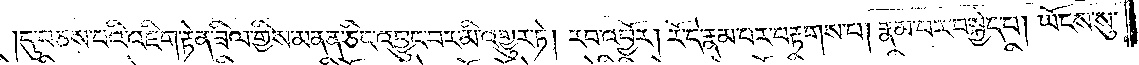དུ་བཅས་པའི་འཇིག་རྟེན་ཟིལ་གྱིས་མནན་ཅིར་འབྱུང་བར་མི་འགྱུར་ཏེ། རབ་འབྱོར། རོ་དེ་རྣམ་པར་བརྟགས་པ། རྣམ་པར་བསྐྱེད་པ། ཡོངས་སུ་
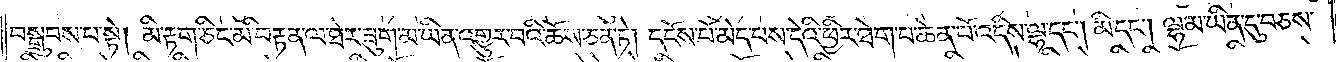བསྒྲུབས་པ་སྟེ། མི་རྟག་ཅིང་མི་བརྟན་ལ་ཐེར་ཟུག་མ་ཡིན་འགྱུར་བའི་ཆོས་ཅན་ཏེ། དངོས་པོ་མེད་པས་དེའི་ཕྱིར་ཐེག་པ་ཆེན་པོ་འདིས་ལྷ་དང༌། མི་དང༌། ལྷ་མ་ཡིན་དུ་བཅས་
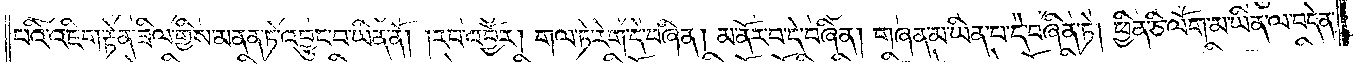པའི་འཇིག་རྟེན་ཟིལ་གྱིས་མནན་ཏེ་འབྱུང་བ་ཡིན་ནོ། །རབ་འབྱོར། གལ་ཏེ་རེག་དེ་བཞིན། མ་ནོར་བ་དེ་བཞིན། གཞན་མ་ཡིན་པ་དེ་བཞིན་ཏེ། ཕྱིན་ཅི་ལོག་མ་ཡིན་ལ་བདེན་
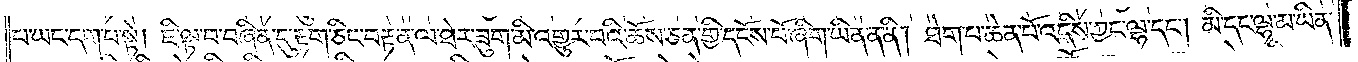པ་ཡང་དག་པ་སྟེ། ཇི་ལྟ་བ་བཞིན་དུ་རྟག་ཅིང་བརྟེན་ལ་ཐེར་ཟུག་མི་འགྱུར་བའི་ཆོས་ཅན་གྱི་དངོས་པོ་ཞིག་ཡིན་ན་ནི། ཐེག་པ་ཆེན་པོ་འདིས་ཀྱང་ལྷ་དང༌། མི་དང་ལྷ་མ་ཡིན་
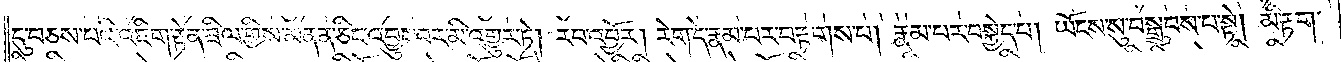དུ་བཅས་པའི་འཇིགས་རྟེན་ཟིལ་གྱིས་མནན་ཅིང་འབྱུང་བར་མི་འགྱུར་ཏེ། རབ་འབྱོར། རེག་དེ་རྣམ་པར་བརྟགས་པ། རྣམ་པར་བསྐྱེད་པ། ཡོངས་སུ་བསྒྲུབས་པ་སྟེ། མི་རྟག་
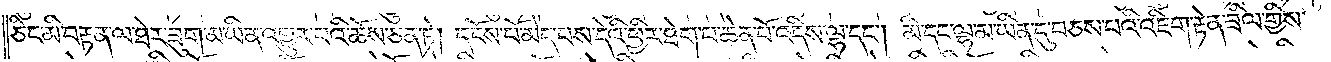ཅིང་མི་བརྟན་ལ་ཐེར་ཟུག་མ་ཡིན་འགྱུར་བའི་ཆོས་ཅན་ཏེ། དངོས་པོ་མེད་པས་དེའི་ཕྱིར་ཐེག་པ་ཆེན་པོ་འདིས་ལྷ་དང༌། མི་དང་ལྷ་མ་ཡིན་དུ་བཅས་པའི་འཇིག་རྟེན་ཟིལ་གྱིས་
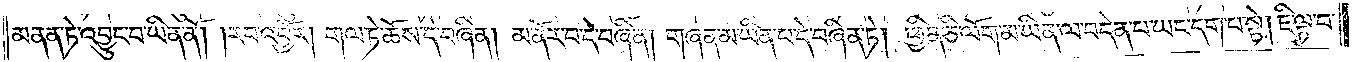མནན་ཏེ་འབྱུང་བ་ཡིན་ནོ། །རབ་འབྱོར། གལ་ཏེ་ཆོས་དེ་བཞིན། མ་ནོར་བ་དེ་བཞིན། གཞན་མ་ཡིན་པ་དེ་བཞིན་ཏེ། ཕྱིན་ཅི་ལོག་མ་ཡིན་ལ་བདེན་པ་ཡང་དག་པ་སྟེ། ཇི་ལྟ་བ་
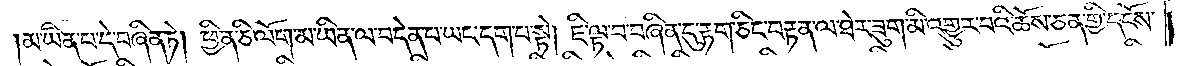མ་ཡིན་པ་དེ་བཞིན་ཏེ། ཕྱིན་ཅི་ལོག་མ་ཡིན་ལ་བདེན་པ་ཡང་དག་པ་སྟེ། ཇི་ལྟ་བ་བཞིན་དུ་རྟག་ཅིང་བརྟན་ལ་ཐེར་ཟུག་མི་འགྱུར་བའི་ཆོས་ཅན་གྱི་དངོས་
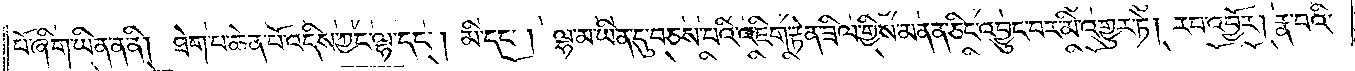པོ་ཞིག་ཡིན་ན་ནི། ཐེག་པ་ཆེན་པོ་འདིས་ཀྱང་ལྷ་དང༌། མི་དང༌། ལྷ་མ་ཡིན་དུ་བཅས་པའི་འཇིག་རྟེན་ཟིལ་གྱིས་མནན་ཅིང་འབྱུང་བར་མི་འགྱུར་ཏེ། རབ་འབྱོར། རྣ་བའི་
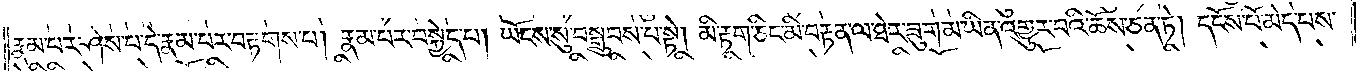རྣམ་པར་ཤེས་པ་དེ་རྣམ་པར་བརྟགས་པ། རྣམ་པར་བསྐྱེད་པ། ཡོངས་སུ་བསྒྲུབས་པ་སྟེ། མི་རྟག་ཅིང་མི་བརྟན་ལ་ཐེར་ཟུག་མ་ཡིན་འགྱུར་བའི་ཆོས་ཅན་ཏེ། དངོས་པོ་མེད་པས་
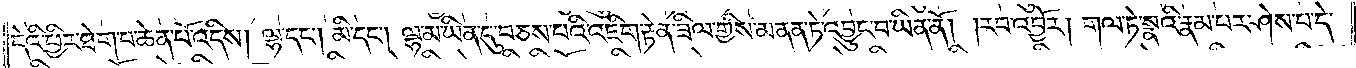དེའི་ཕྱིར་ཐེག་པ་ཆེན་པོ་འདིས། ལྷ་དང༌། མི་དང༌། ལྷ་མ་ཡིན་དུ་བཅས་པའི་འཇིག་རྟེན་ཟིལ་གྱིས་མནན་ཏེ་འབྱུང་བ་ཡིན་ནོ། །རབ་འབྱོར། གལ་ཏེ་སྣའི་རྣམ་པར་ཤེས་པ་དེ་
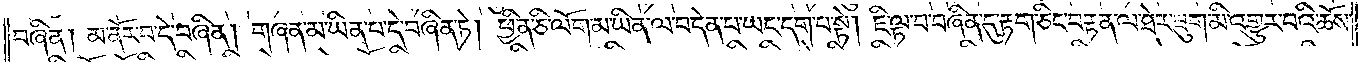བཞིན། མ་ནོར་བ་དེ་བཞིན། གཞན་མ་ཡིན་པ་དེ་བཞིན་ཏེ། ཕྱིན་ཅི་ལོག་མ་ཡིན་ལ་བདེན་པ་ཡང་དག་པ་སྟེ། ཇི་ལྟ་བ་བཞིན་དུ་རྟག་ཅིང་བརྟན་ལ་ཐེར་ཟུག་མི་འགྱུར་བའི་ཆོས་
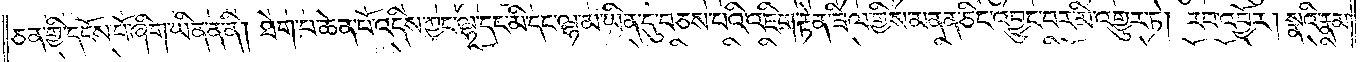ཅན་གྱི་དངོས་པོ་ཞིག་ཡིན་ན་ནི། ཐེག་པ་ཆེན་པོ་འདིས་ཀྱང་ལྷ་དང་མི་དང་ལྷ་མ་ཡིན་དུ་བཅས་པའི་འཇིག་རྟེན་ཟིལ་གྱིས་མནན་ཅིང་འབྱུང་བར་མི་འགྱུར་ཏེ། རབ་འབྱོར། སྣའི་རྣམ་
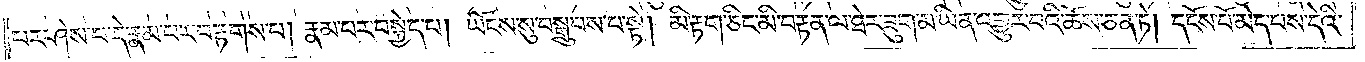པར་ཤེས་པ་དེ་རྣམ་པར་བརྟགས་པ། རྣམ་པར་བསྐྱེད་པ། ཡོངས་སུ་བསྒྲུབས་པ་སྟེ། མི་རྟག་ཅིང་མི་བརྟན་ལ་ཐེར་ཟག་མ་ཡིན་འགྱུར་བའི་ཆོས་ཅན་ཏེ། དངོས་པོ་མེད་པས་དེའི་
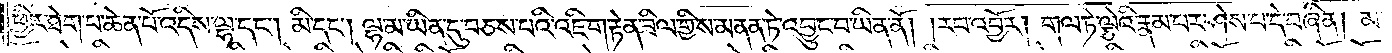ཕྱིར་ཐེག་པ་ཆེན་པོ་འདིས་ལྷ་དང༌། མི་དང༌། ལྷ་མ་ཡིན་དུ་བཅས་པའི་འཇིག་རྟེན་ཟིལ་གྱིས་མནན་ཏེ་འབྱུང་བ་ཡིན་ནོ། །རབ་འབྱོར། གལ་ཏེ་ལྕེའི་རྣམ་པར་ཤེས་པ་དེ་བཞིན། མ་
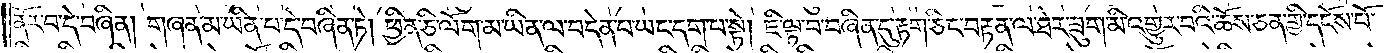ནོར་བ་དེ་བཞིན། གཞན་མ་ཡིན་པ་དེ་བཞིན་ཏེ། ཕྱིན་ཅི་ལོག་མ་ཡིན་ལ་བདེན་པ་ཡང་དག་པ་སྟེ། ཇི་ལྟ་བ་བཞིན་དུ་རྟག་ཅིང་བརྟན་ལ་ཐེར་ཟུག་མི་འགྱུར་བའི་ཆོས་ཅན་གྱི་དངོས་པོ་
